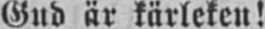Gud är kärleken!
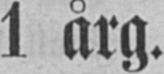1 årg.
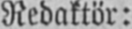Redaktör:
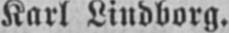Karl Lindborg.
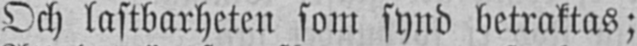Och lastbarheten som synd betraktas;
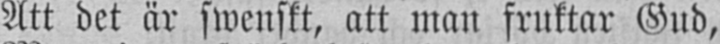Att det är swenskt, att man fruktar Gud,
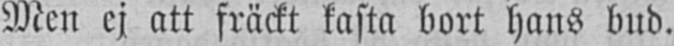Men ej att fräckt kasta bort hans bud.
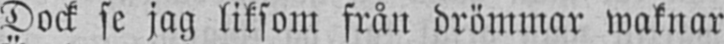Dock se jag liksom från drömmar waknar
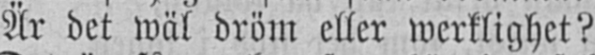Är det wäl dröm eller werklighet?
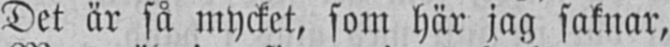Det är så mycket, som här jag saknar,
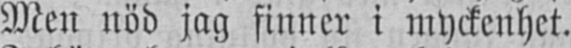Men nöd jag finner i myckenhet.
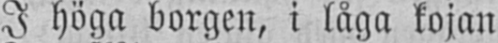I höga borgen, i låga kojan
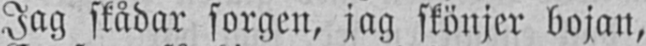Jag skådar sorgen, jag skönjer bojan,
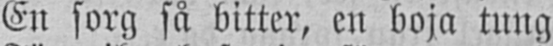En sorg så bitter, en boja tung
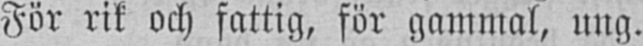För rik och fattig, för gammal, ung.
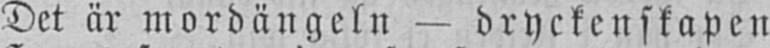Det är mordängeln — dryckenskapen
